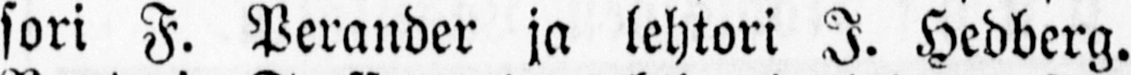sori F. Perander ja lehtori J. Hedberg.
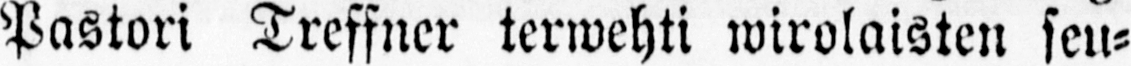Pastori Treffner terwehti wirolaisten seu-
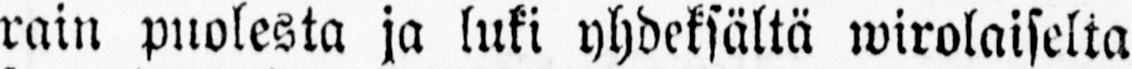rain puolesta ja luki yhdeksältä wirolaiselta
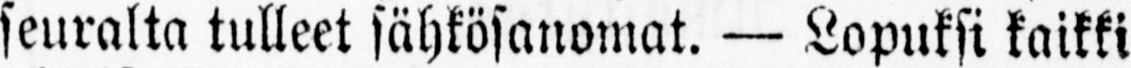seuralta tulleet sähkösanomat. — Lopuksi kaikki
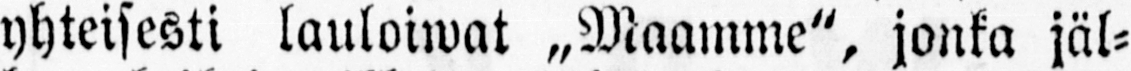yhteisesti lauloiwat „Maamme", jonka jäl-
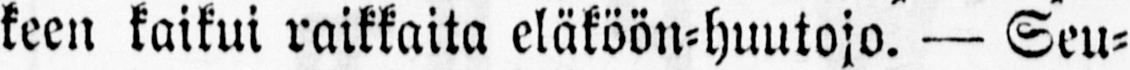keen kaikui raikkaita eläköön-huutojo. — Seu-
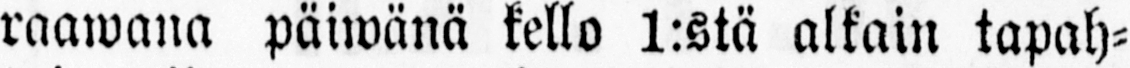raawana päiwänä kello 1:stä alkain tapah-
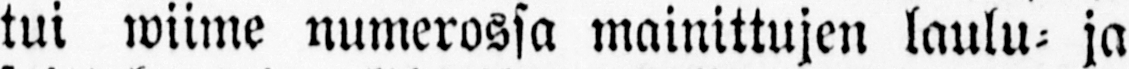tui wiime numerossa mainittujen laulu- ja
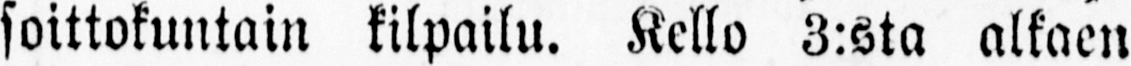soittokuntain kilpailu. Kello 3:sta alkaen
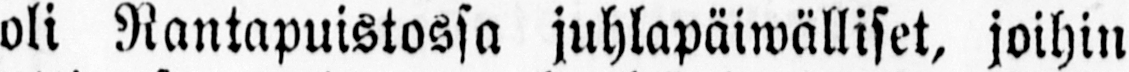oli Rantapuistossa juhlapäiwälliset, joihin
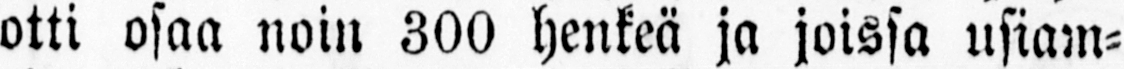otti osaa noin 300 henkeä ja joissa usiam-
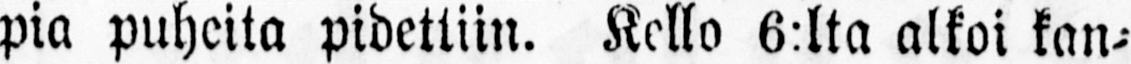pia puheita pidettiin. Kello 6:lta alkoi kan-
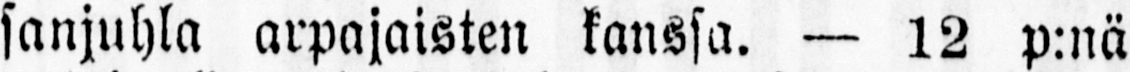sanjuhla arpajaisten kanssa. — 12 p:nä
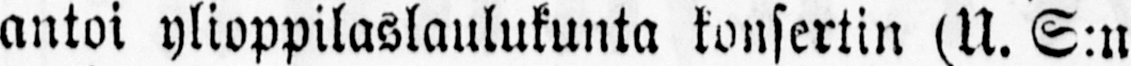antoi ylioppilaslaulukunta konsertin (U. S:n
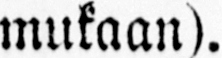mukaan).
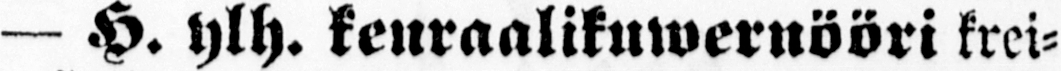— H. ylh. keuraalikuwernööri krei-
